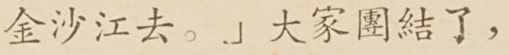金沙江去。」大家團結了，
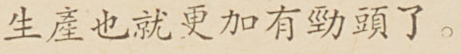生產也就更加有勁頭了。
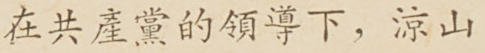在共產黨的領導下，涼山
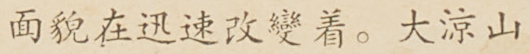面貌在迅速改善着。大涼山
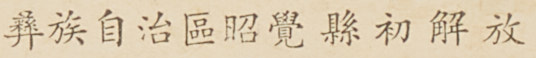彝族自治區昭覺縣初解放
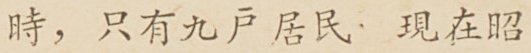時，只有九戶居民，現在昭
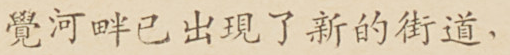覺河畔已出現了新的街道，
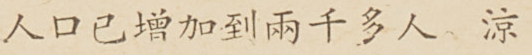人口已增加到兩千多人。涼
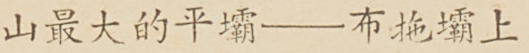山最大的平壩——布拖壩上
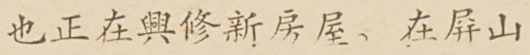也正在興修新房屋。在屏山
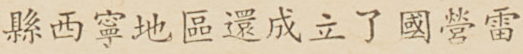縣西寧地區還成立了國營雷
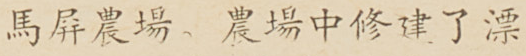馬屏農場。農場中修建了漂
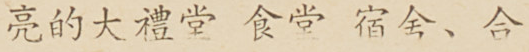亮的大禮堂 食堂 宿舍、合
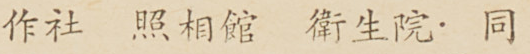作社 照相館 衛生院，同
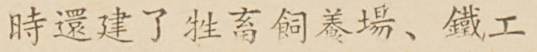時還建了牲畜飼養場、鐵工
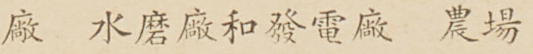廠 水磨廠和發電廠 農場
